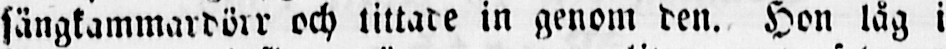sängkammardörr och tittade in genom den. Hon låg i
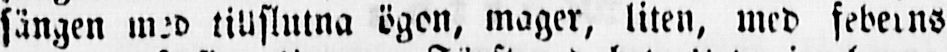sängen med tillslutna ögon, mager, liten, med feberns
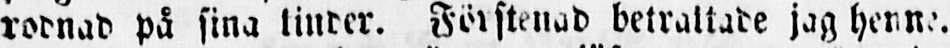rodnad på sina kinder. Förstenad betraktade jag henne.
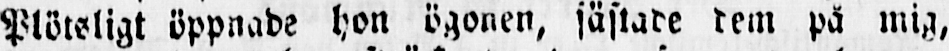Plötsligt öppnade hon ögonen, fästade dem på mig,
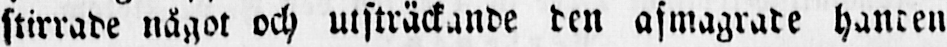stirrade något och utsträckande den afmagrade handen
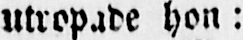utropade hon:
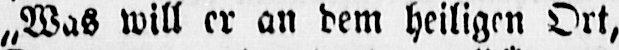„Was will er an dem heiligen Ort,
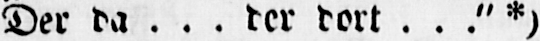Der da . . . der dort . . ." *)
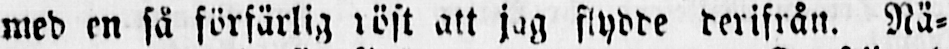med en så förfärlig röst att jag flydde derifrån. Nä-
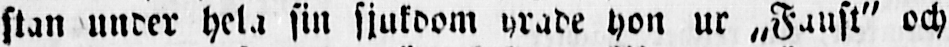stan under hela sin sjukdom yrade hon ur „Faust" och
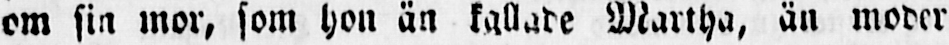om sin mor, som hon än kallade Martha, än moder
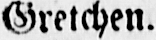Gretchen.
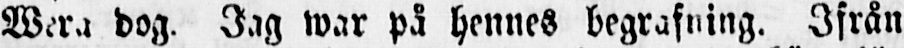Wera dog. Jag war på hennes begrafning. Ifrån
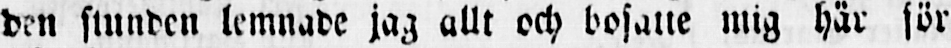den stunden lemnade jag allt och bosatte mig här för
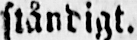ståndigt.
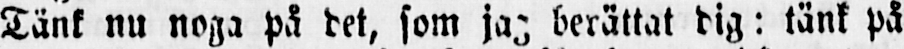Tänk nu noga på det, som jag berättat dig: tänk på
